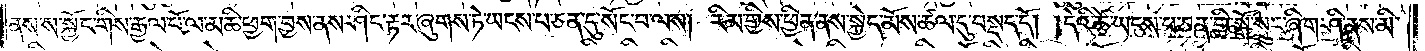ནས་ས་སྐྱོང་གིས་རྒྱལ་པོ་ལ་མཆི་ཕྱག་བྱས་ནས་ཤིང་རྟར་ཞུགས་ཏེ་ཡངས་པ་ཅན་དུ་སོང་བ་ལས། རིམ་གྱིས་ཕྱིན་ནས་སྐྱེད་མོས་ཚལ་དུ་བསྡད་དོ། །དེའི་ཚེ་ཡངས་པ་ཅན་གྱི་སྒོ་སྲུང་ཞིག་ཤི་ནས་མི་
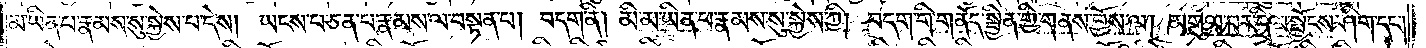མ་ཡིན་པ་རྣམས་སུ་སྐྱེས་པ་དེས། ཡངས་པ་ཅན་པ་རྣམས་ལ་བསྟན་པ། བདག་ནི། མི་མ་ཡིན་པ་རྣམས་སུ་སྐྱེས་ཀྱི། བདག་གི་གནོད་སྦྱིན་གྱི་གནས་བྱོས་ལ། མགུལ་བར་དྲིལ་སྦྱོངས་ཤིག་དང༌།
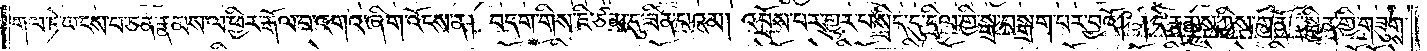གལ་ཏེ་ཡངས་པ་ཅན་རྣམས་ལ་ཕྱིར་རྒོལ་བ་འགའ་ཞིག་འོངས་ན། བདག་གིས་ཇི་ཙམ་དུ་ཟིན་པའམ། འབྲོས་པར་གྱུར་པ་སྲིད་དུ་དྲིལ་གྱི་སྒྲ་བསྒྲག་པར་བྱའོ། །དེ་རྣམས་ཀྱིས་གནོད་སྦྱིན་གྱི་གཟུགས་
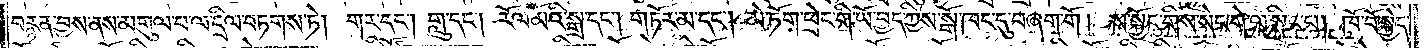བརྙན་བྱས་ནས་མགུལ་པ་ལ་དྲིལ་བཏགས་ཏེ། གར་དང༌། གླུ་དང༌། རོལ་མོའི་སྒྲ་དང༌། གཏོར་མ་དང༌། མེ་ཏོག་ཕྲེང་གི་ཡོ་བྱད་ཀྱིས་སྒོ་ཁང་དུ་བཞག་གོ། ས་སྐྱོང་གིས་སེང་གེ་ལ་སྤྲིང་པ། ཁོ་བོ་སྐྱེད་
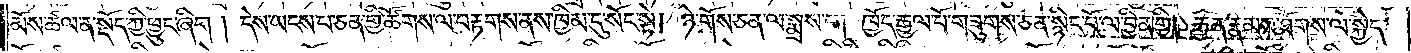མོས་ཚལ་ན་སྡོད་ཀྱི་ཕྱུང་ཞིག། དེས་ཡངས་པ་ཅན་གྱི་ཚོགས་ལ་བརྟགས་ནས་ཁྱིམ་དུ་སོང་སྟེ། ཉེ་གོས་ཅན་ལ་སྨྲས་པ། ཁྱོད་རྒྱལ་པོ་གཟུགས་ཅན་སྙིང་པོ་ལ་བྱིན་གྱི། རྒྱན་རྣམས་ཐོགས་ལ་སྐྱེད་
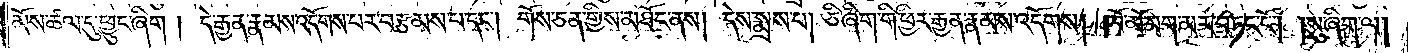མོས་ཚལ་དུ་ཕྱུང་ཞིག། དེ་རྒྱན་རྣམས་འདོགས་པར་བརྩམས་པ་དང༌། གོས་ཅན་གྱིས་མཐོང་ནས། དེས་སྨྲས་པ། ཅི་ཞིག་གི་ཕྱིར་རྒྱན་རྣམས་འདོགས། ཁོ་མོ་བག་མར་བཏང་ངོ༌། །སུ་ཞིག་ལ།
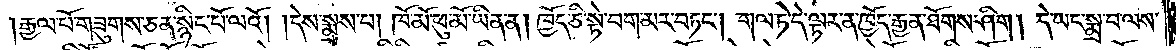རྒྱལ་པོ་གཟུགས་ཅན་སྙིང་པོ་ལའོ། །དེས་སྨྲས་པ། ཁོ་མོ་ཕུ་མོ་ཡིན་ན། ཁྱོད་ཅི་སྟེ་བག་མར་བཏང༌། གལ་ཏེ་དེ་ལྟར་ན་ཁྱོད་རྒྱན་ཐོགས་ཤིག། དེ་ཡང་སྨྲ་བ་ལས་
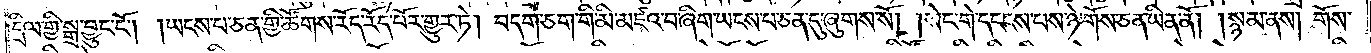དྲིལ་གྱི་སྒྲ་བྱུང་ངོ༌། །ཡངས་པ་ཅན་གྱི་ཚོགས་རོད་རོད་པོར་གྱུར་ཏེ། བདག་ཅག་གི་མི་མཛའ་བ་ཞིག་ཡངས་པ་ཅན་དུ་ཞུགས་སོ། །སེང་གེ་དངངས་པས་ཉེ་གོས་ཅན་ཡིན་ནོ། །སྙམ་ནས། གོས་
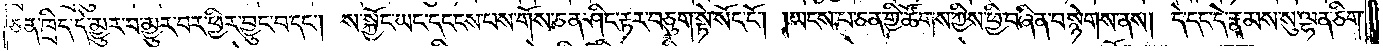ཅན་ཁྲིད་དེ་མྱུར་བ་མྱུར་བར་ཕྱིར་བྱུང་བ་དང༌། ས་སྐྱོང་ཡང་དངངས་པས་གོས་ཅན་ཤིང་རྟར་བཅུག་སྟེ་སོང་ངོ༌། །ཡངས་པ་ཅན་གྱི་ཚོགས་ཀྱིས་ཕྱི་བཞིན་བསྙེགས་ནས། དེ་དང་དེ་རྣམས་སུ་ལྷན་ཅིག་
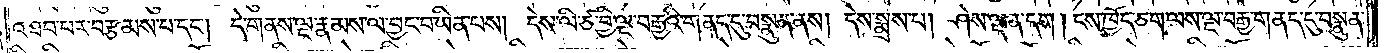འཐབ་པར་བརྩམས་པ་དང༌། དེ་གནས་ལྔ་རྣམས་ལ་བྱང་བ་ཡིན་པས། དེས་ལི་ཙ་བྱི་ལྔ་བརྒྱའི་གནད་དུ་བསྣུན་ནས། དེས་སྨྲས་པ། ཤེས་ལྡན་དག །ངས་ཁྱོད་ཅག་ལས་ལྔ་བརྒྱ་གནད་དུ་བསྣུན་
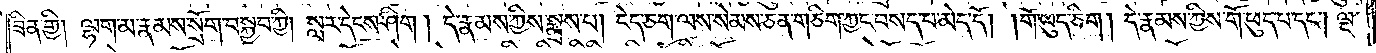ཟིན་གྱི། ལྷག་མ་རྣམས་སྲོག་བསྐྱབ་ཀྱི། སླར་དེངས་ཤིག། དེ་རྣམས་ཀྱིས་སྨྲས་པ། ངེད་ཅག་ལས་སེམས་ཅན་གཅིག་ཀྱང་བསད་པ་མེད་དོ། །གོ་ཕུད་ཅིག། དེ་རྣམས་ཀྱིས་གོ་ཕུད་པ་དང༌། ལྔ་
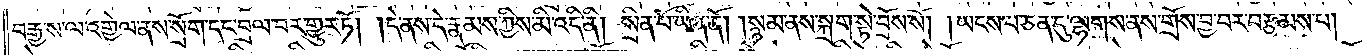བརྒྱ་ས་ལ་འགྱེལ་ནས་སྲོག་དང་བྲལ་བར་གྱུར་ཏོ། །དེ་ནས་དེ་རྣམས་ཀྱིས་མི་འདི་ནི། སྲིན་པོ་ཡིན་ནོ། །སྙམ་ནས་སྐྲག་སྟེ་བྲོས་སོ། །ཡངས་པ་ཅན་དུ་ལྷགས་ནས་གྲོས་བྱ་བར་བརྩམས་པ།
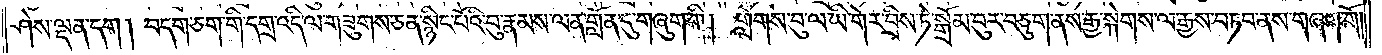ཤེས་ལྡན་དག། བདག་ཅག་གི་དགྲ་འདི་ལ་གཟུགས་ཅན་སྙིང་པོའི་བུ་རྣམས་ལན་གློན་དུ་གཞུག་གི། གླེགས་བུ་ལ་ཡི་གེར་བྲིས་ཏེ་སྒྲོམ་བུར་བཅུག་ནས་རྒྱ་སྐེགས་ལ་རྒྱས་བཏབ་ནས་གཞག་གོ།
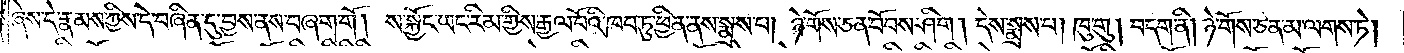ཞེས་དེ་རྣམས་ཀྱིས་དེ་བཞིན་དུ་བྱས་ནས་བཞག་གོ། ས་སྐྱོང་ཡང་རིམ་གྱིས་རྒྱལ་པོའི་ཁབ་ཏུ་ཕྱིན་ནས་སྨྲས་པ། ཉེ་གོས་ཅན་བོབས་ཤིག། དེས་སྨྲས་པ། ཁུ་གུ། བདག་ནི། ཉེ་གོས་ཅན་མ་ལགས་ཏེ།
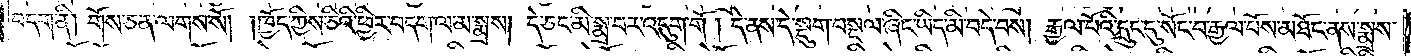བདག་ནི། གོས་ཅན་ལགས་སོ། །ཁྱོད་ཀྱིས་ཅིའི་ཕྱིར་བདག་ལ་མ་སྨྲས། དེ་ཅང་མི་སྨྲ་བར་འདུག་གོ། དེ་ནས་དེ་སྡུག་བསྔལ་ཞིང་ཡིད་མི་བདེ་བས། རྒྱལ་པོའི་དྲུང་དུ་སོང་བ་རྒྱལ་པོས་མཐོང་ནས་སྨྲས་
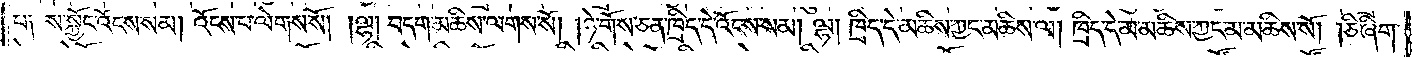པ༑ ས་སྐྱོང་འོངས་སམ། འོངས་པ་ལེགས་སོ། །ལྷ། བདག་མཆིས་ལགས་སོ། །ཉེ་གོས་ཅན་ཁྲིད་དེ་འོངས་སམ། ལྷ། ཁྲིད་དེ་མཆིས་ཀྱང་མཆིས་ལ། ཁྲིད་དེ་མ་མཆིས་ཀྱང་མ་མཆིས་སོ། །ཅི་ཞིག་
